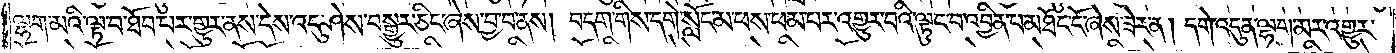ལྷག་མའི་ལྟ་བ་ཐོབ་པར་གྱུར་ནས་དེས་འདུ་ཤེས་བསྒྱུར་ཅིང་ཞེས་བྱ་བ་ནས། བདག་གིས་དགེ་སློང་མ་ཕས་ཕམ་པར་འགྱུར་བའི་ལྟུང་བ་འབྱིན་པ་མཐོང་ངོ་ཞེས་ཟེར་ན། དགེ་འདུན་ལྷག་མར་འགྱུར་
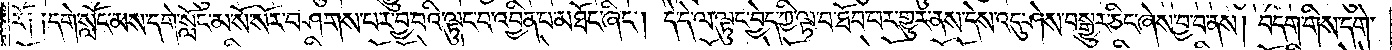རོ། །དགེ་སློང་མས་དགེ་སློང་མ་སོ་སོར་བཤགས་པར་བྱ་བའི་ལྟུང་བ་འབྱིན་པ་མཐོང་ཞིང༌། དེ་དེ་ལ་ལྟུང་བྱེད་ཀྱི་ལྟ་བ་ཐོབ་པར་གྱུར་ནས་དེས་འདུ་ཤེས་བསྒྱུར་ཅིང་ཞེས་བྱ་བ་ནས། བདག་གིས་དགེ་
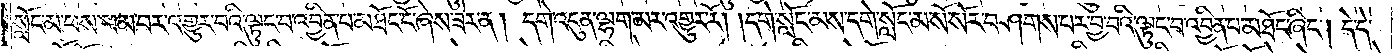སློང་མ་ཕས་ཕམ་པར་འགྱུར་བའི་ལྟུང་བ་འབྱིན་པ་མཐོང་ངོ་ཞེས་ཟེར་ན། དགེ་འདུན་ལྷག་མར་འགྱུར་རོ། །དགེ་སློང་མས་དགེ་སློང་མ་སོ་སོར་བཤགས་པར་བྱ་བའི་ལྟུང་བ་འབྱིན་པ་མཐོང་ཞིང༌། དེ་དེ་
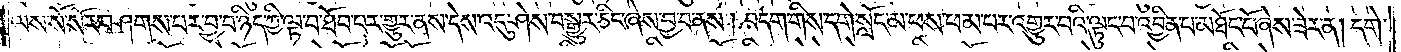ལས་སོ་སོར་བཤགས་པར་བྱ་བ་ཉིད་ཀྱི་ལྟ་བ་ཐོབ་པར་གྱུར་ནས་དེས་འདུ་ཤེས་བསྒྱུར་ཅིང་ཞེས་བྱ་བ་ནས། བདག་གིས་དགེ་སློང་མ་ཕས་ཕམ་པར་འགྱུར་བའི་ལྟུང་བ་འབྱིན་པ་མཐོང་ངོ་ཞེས་བྱ་བ་ཟེར་ན། དགེ་
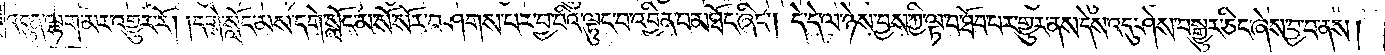འདུན་ལྷག་མར་འགྱུར་རོ། །དགེ་སློང་མས་དགེ་སློང་མ་སོ་སོར་བཤགས་པར་བྱ་བའི་ལྟུང་བ་འབྱིན་པ་མཐོང་ཞིང༌། དེ་དེ་ལ་ཉེས་བྱས་ཀྱི་ལྟ་བ་ཐོབ་པར་གྱུར་ནས་དེས་འདུ་ཤེས་བསྒྱུར་ཅིང་ཞེས་བྱ་བ་ནས།
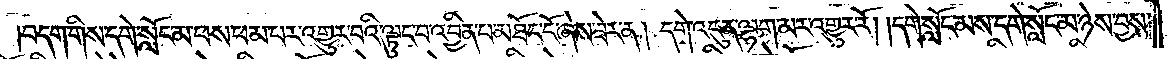བདག་གིས་དགེ་སློང་མ་ཕས་ཕམ་པར་འགྱུར་བའི་ལྟུང་བ་འབྱིན་པ་མཐོང་ངོ་ཞེས་ཟེར་ན། དགེ་འདུན་ལྷག་མར་འགྱུར་རོ། །དགེ་སློང་མས་དགེ་སློང་མ་ཉེས་བྱས་
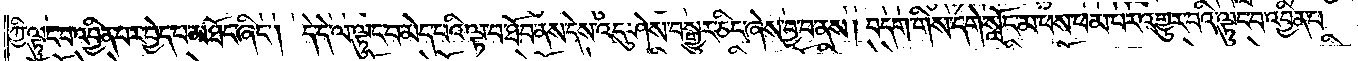ཀྱི་ལྟུང་བ་འབྱིན་པར་བྱེད་པ་མཐོང་ཞིང༌། དེ་དེ་ལ་ལྟུང་བ་མེད་པའི་ལྟ་བ་ཐོབ་ནས་དེས་འདུ་ཤེས་བསྒྱུར་ཅིང་ཞེས་བྱ་བ་ནས། བདག་གིས་དགེ་སློང་མ་ཕས་ཕམ་པར་འགྱུར་བའི་ལྟུང་བ་འབྱིན་པ་
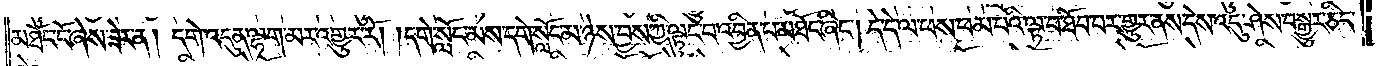མཐོང་ངོ་ཞེས་ཟེར་ན། དགེ་འདུན་ལྷག་མར་འགྱུར་རོ། །དགེ་སློང་མས་དགེ་སློང་མ་ཉེས་བྱས་ཀྱི་ལྟུང་བ་འབྱིན་པ་མཐོང་ཞིང༌། དེ་དེ་ལ་ཕས་ཕམ་པའི་ལྟ་བ་ཐོབ་པར་གྱུར་ནས་དེས་འདུ་ཤེས་བསྒྱུར་ཅིང་
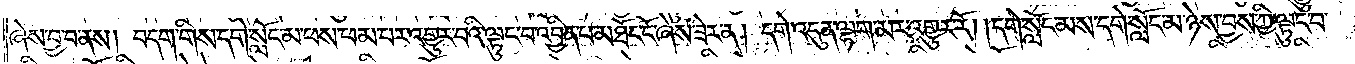ཞེས་བྱ་བ་ནས། བདག་གིས་དགེ་སློང་མ་ཕས་ཕམ་པར་འགྱུར་བའི་ལྟུང་བ་འབྱིན་པ་མཐོང་ངོ་ཞེས་ཟེར་ན། དགེ་འདུན་ལྷག་མར་འགྱུར་རོ། །དགེ་སློང་མས་དགེ་སློང་མ་ཉེས་བྱས་ཀྱི་ལྟུང་བ་
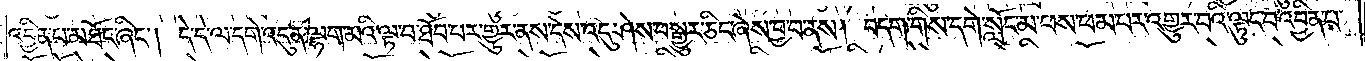འབྱིན་པ་མཐོང་ཞིང༌། དེ་དེ་ལ་དགེ་འདུན་ལྷག་མའི་ལྟ་བ་ཐོབ་པར་གྱུར་ནས་དེས་འདུ་ཤེས་བསྒྱུར་ཅིང་ཞེས་བྱ་བ་ནས། བདག་གིས་དགེ་སློང་མ་ཕས་ཕམ་པར་འགྱུར་བའི་ལྟུང་བ་འབྱིན་པ་
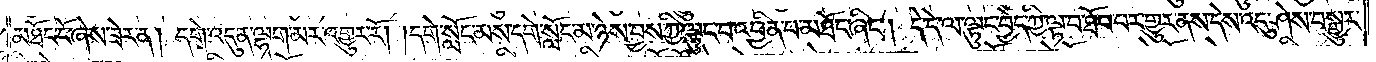མཐོང་ངོ་ཞེས་ཟེར་ན། དགེ་འདུན་ལྷག་མར་འགྱུར་རོ། །དགེ་སློང་མས་དགེ་སློང་མ་ཉེས་བྱས་ཀྱི་ལྟུང་བ་འབྱིན་པ་མཐོང་ཞིང༌། དེ་དེ་ལ་ལྟུང་བྱེད་ཀྱི་ལྟ་བ་ཐོབ་པར་གྱུར་ནས་དེས་འདུ་ཤེས་བསྒྱུར་
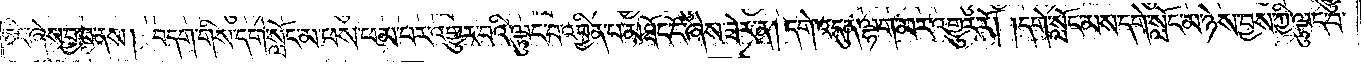ཅིང་ཞེས་བྱ་བ་ནས། བདག་གིས་དགེ་སློང་མ་ཕས་ཕམ་པར་འགྱུར་བའི་ལྟུང་བ་འབྱིན་པ་མཐོང་ངོ་ཞེས་ཟེར་ན། དགེ་འདུན་ལྷག་མར་འགྱུར་རོ། །དགེ་སློང་མས་དགེ་སློང་མ་ཉེས་བྱས་ཀྱི་ལྟུང་བ་
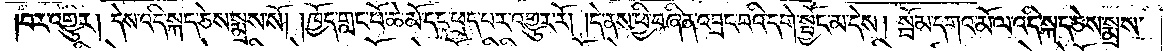བར་འགྱུར། དེས་འདི་སྐད་ཅེས་སྨྲས་སོ། །ཁྱོད་གླང་པོ་ཆེ་མོ་དང་ཕྲད་པར་འགྱུར་རོ། །དེ་ནས་ཕྱི་བཞིན་འབྲང་བའི་དགེ་སྦྱོང་མ་དེས། སྦོམ་དགའ་མོ་ལ་འདི་སྐད་ཅེས་སྨྲས་
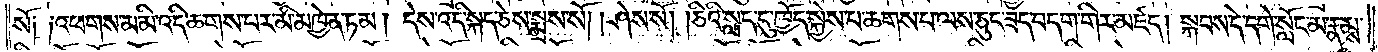སོ། །འཕགས་མ་མི་འདི་ཆགས་པར་མི་མཁྱེན་ཏམ། དེས་འདི་སྐད་ཅེས་སྨྲས་སོ། །ཤེས་སོ། །ཅིའི་སླད་དུ་ཁྱོད་སྐྱེས་པ་ཆགས་པ་ལས་ཅུང་ཟད་བདག་གིར་མཛད། སྐབས་དེ་དགེ་སློང་མ་རྣམས་
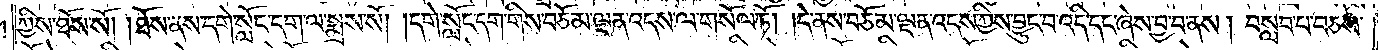ཀྱིས་ཐོས་སོ། །ཐོས་ནས་དགེ་སློང་དག་ལ་སྨྲས་སོ། །དགེ་སློང་དག་གིས་བཅོམ་ལྡན་འདས་ལ་གསོལ་ཏོ། །དེ་ནས་བཅོམ་ལྡན་འདས་ཀྱིས་བྱུང་བ་འདི་དང་ཞེས་བྱ་བ་ནས། བསླབ་པ་བཅས་
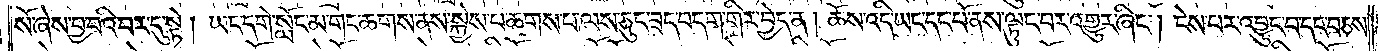སོ་ཞེས་བྱ་བའི་བར་དུ་སྟེ། ཡང་དགེ་སློང་མ་གང་ཆགས་ནས་སྐྱེས་པ་ཆགས་པ་ལས་ཅུང་ཟད་བདག་གིར་བྱེད་ན། ཆོས་འདི་ཡང་དང་པོ་ནས་ལྟུང་བར་འགྱུར་ཞིང༌། ངེས་པར་འབྱུང་བ་དང་བཅས་
